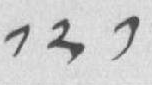༡༢༡
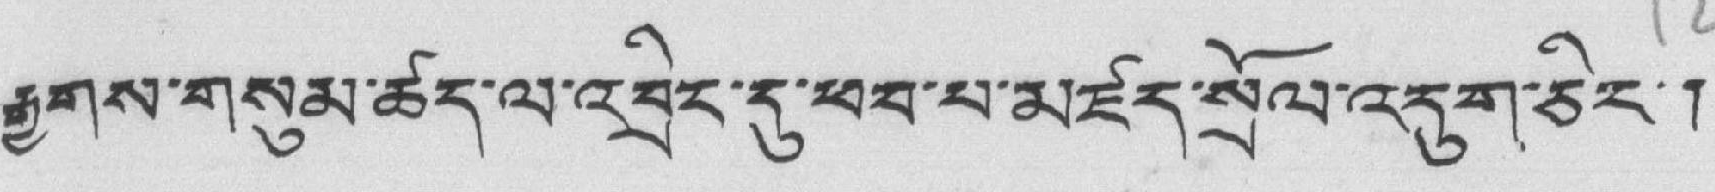རྒྱགས་གསུམ་ཚད་ལ་འབྲིང་དུ་ཕབ་པ་མཛད་སྲོལ་འདུག་ཅིང་།
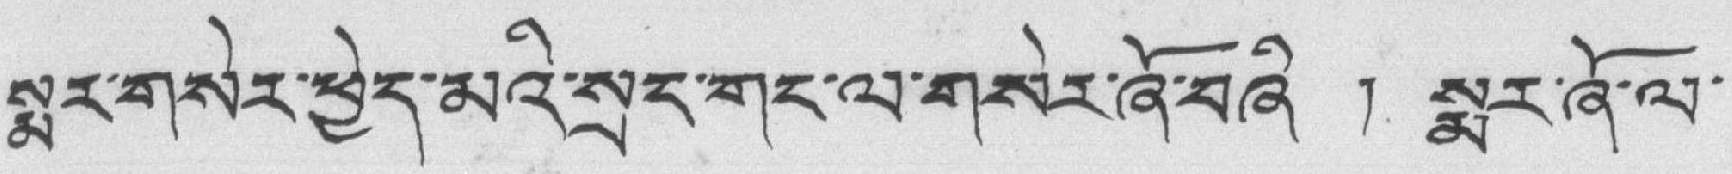སྨར་གསེར་ཕྱེད་མའི་སྲང་གང་ལ་གསེར་ཞོ་བཞི ། སྨར་ཞོ་ལ་
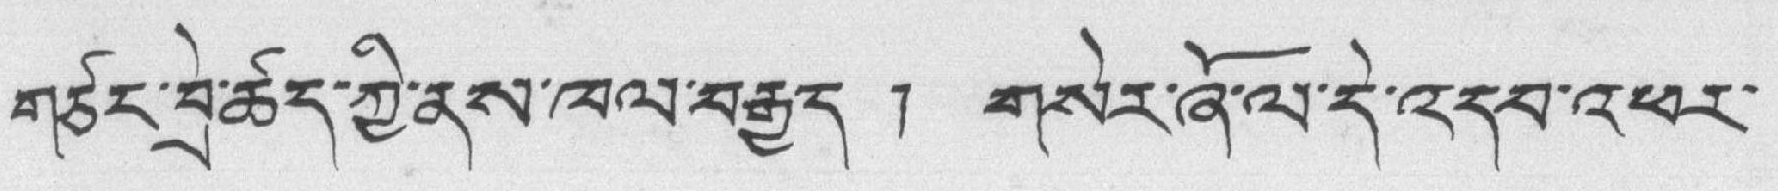གཙང་བྲེ་ཚད་ཀྱི་ནས་ཁལ་བརྒྱད ། གསེར་ཞོ་ལ་དེ་འདབ་འཕར་
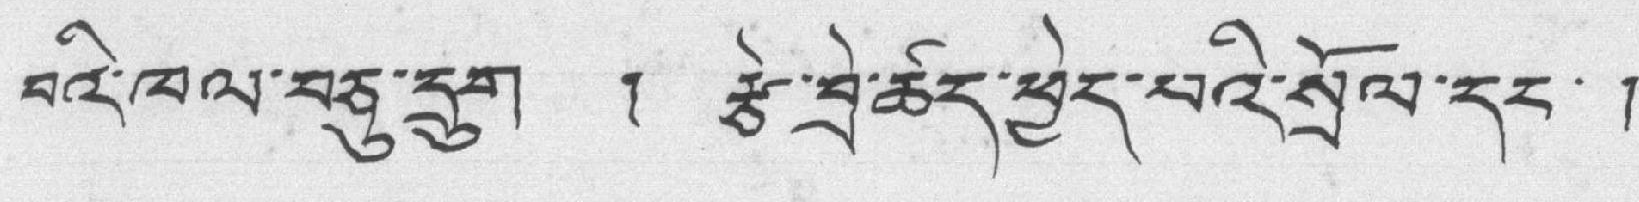བའི་ཁལ་བཅུ་དྲུག ། རྩེ་བྲེ་ཚད་ཕྱེད་པའི་སྲོལ་དང་ །
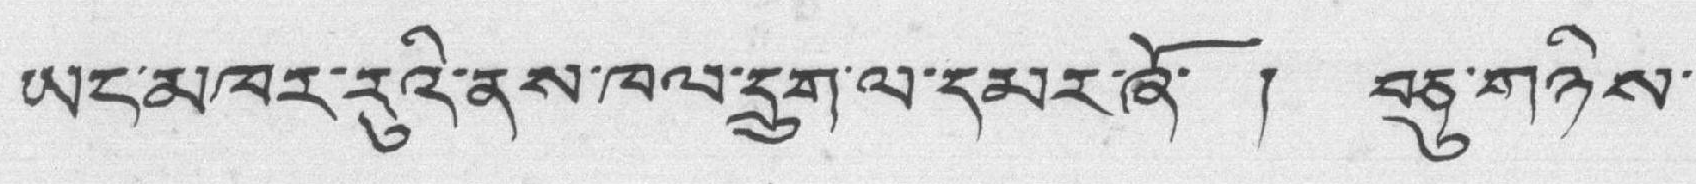ཡང་མཁར་རུའི་ནས་ཁལ་དྲུག་ལ་དམར་ཞོ་ ། བཅུ་གཉིས་
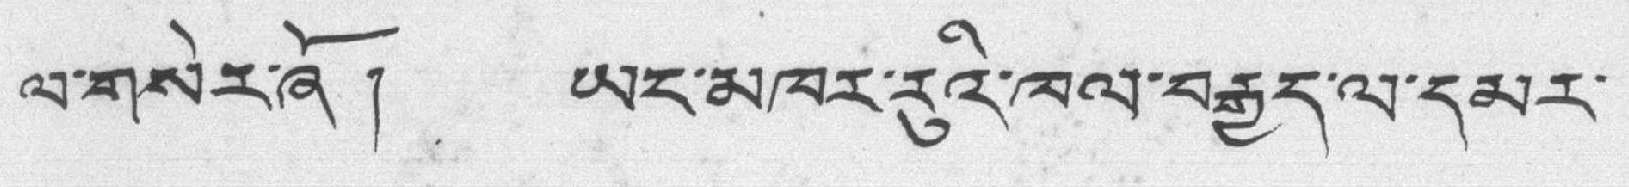ལ་གསེར་ཞོ ། ཡང་མཁར་རུའི་ཁལ་བརྒྱད་ལ་དམར་
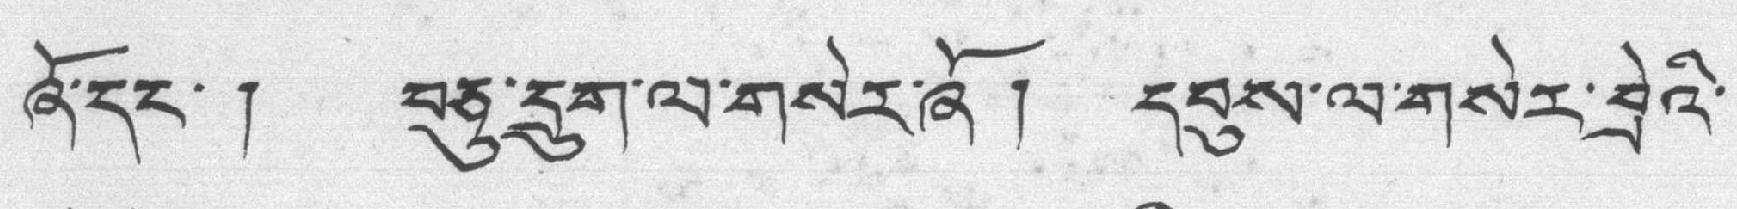ཞོ་དང་། བཅུ་དྲུག་ལ་གསེར་ཞོ། དབུས་ལ་གསེར་བྲེའི་
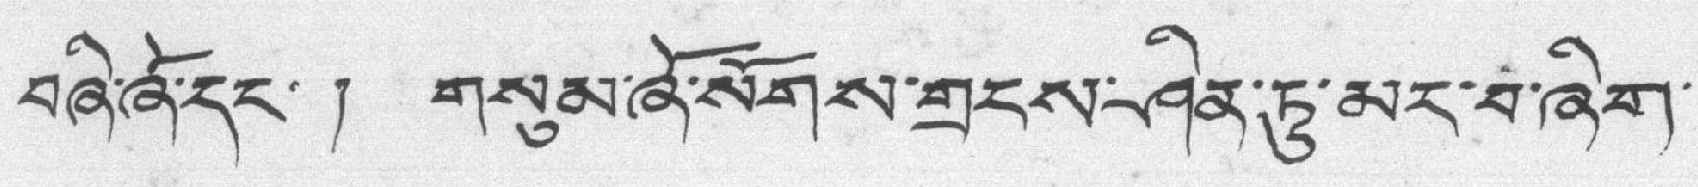བཞི་ནོ་དང་། གསུམ་ཞོ་སོགས་གྲངས་ཤིན་ཏུ་མར་བ་ཞིག་
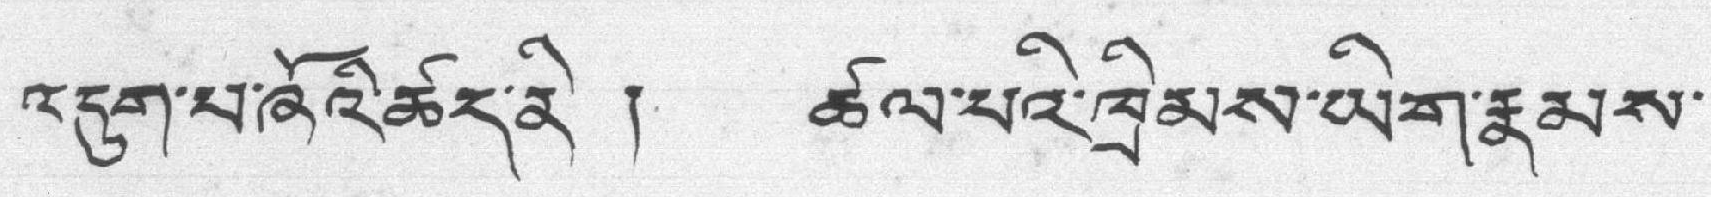འདུག་པ་ཞོའི་ཚད་ནི ། ཚལ་པའི་ཁྲིམས་ཡིག་རྣམས་
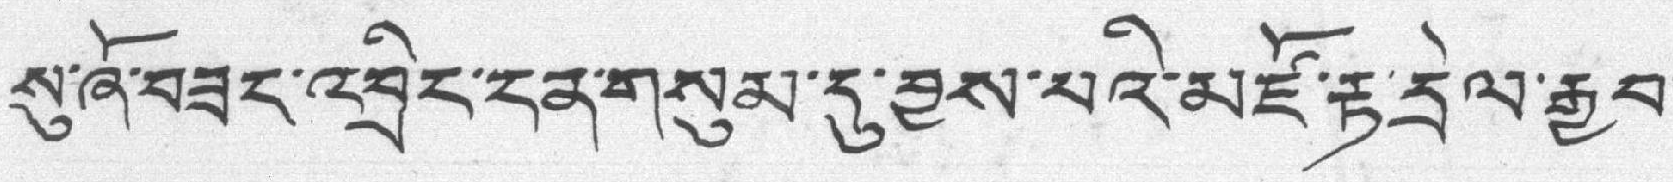སུ་ཞོ་བཟང་འབྲིང་ངན་གསུམ་དུ་བྱས་པའི་མཛོ་རྟ་དྲེལ་རྒྱབ་
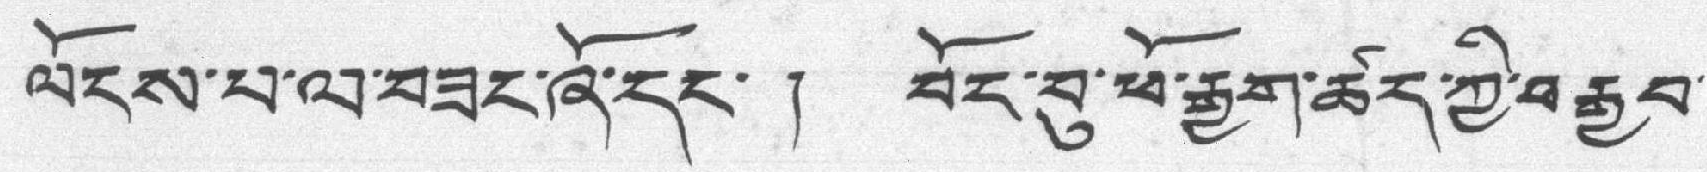ལོངས་པ་ལ་བཟང་ཞོ་དང་ ། བོང་བུ་ཕོ་རྒྱག་ཚད་ཀྱི་བརྒྱབ་
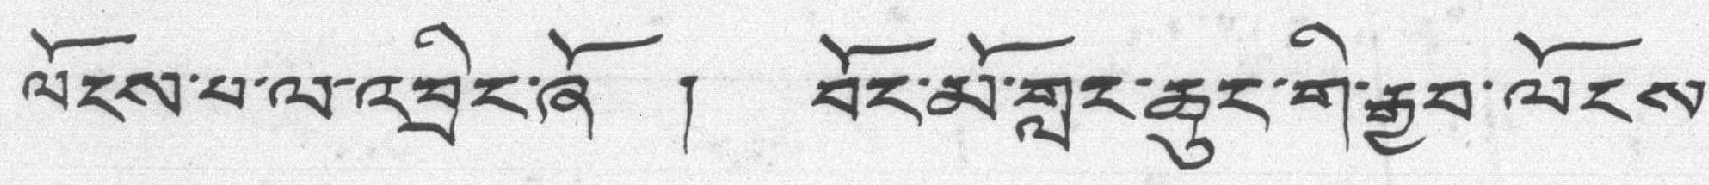ལོངས་པ་ལ་འབྲིང་ཞོ ། བོང་མོ་གླང་ཆུང་གི་རྒྱབ་ལོངས་
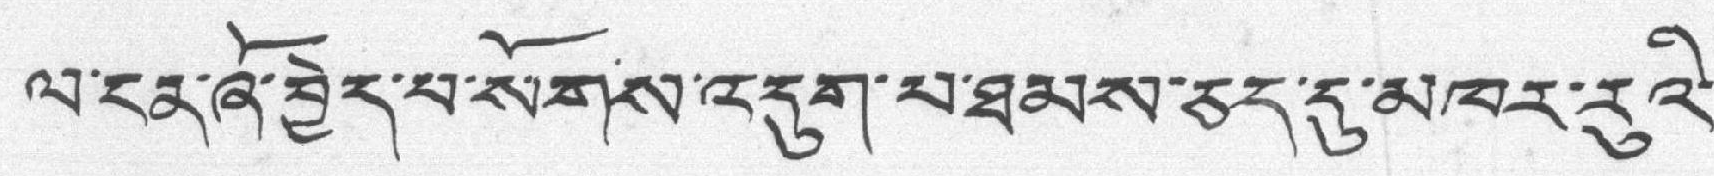ལ་ངན་ཞོ་བྱེད་པ་སོགས་འདུག་པ་ཐམས་ཅད་དུ་མཁར་རུའི་
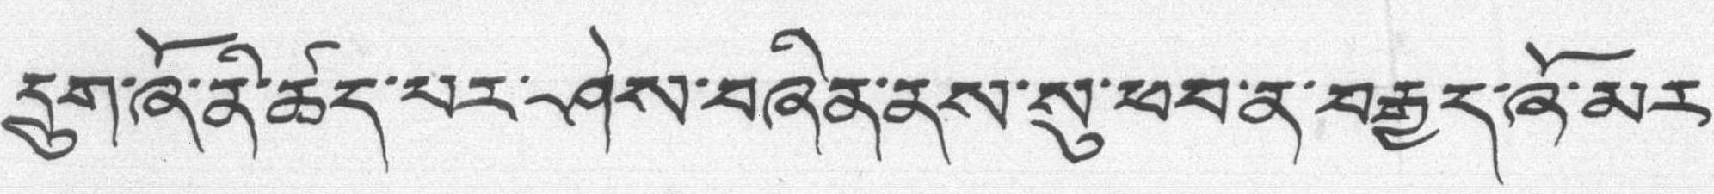དྲུག་ཞོ་ནི་ཚད་པར་ཤེས་བཞིན་ནས་སུ་ཕབ་ན་བརྒྱད་ཞོ་མར་
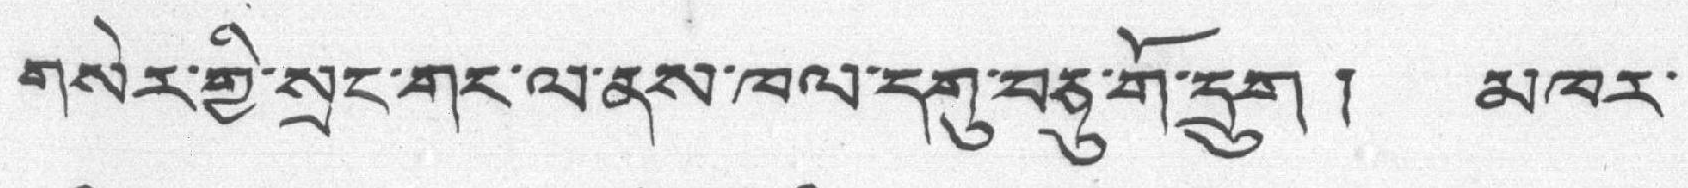གསེར་གྱི་སྲང་གང་ལ་ནས་ཁལ་དགུ་བཅུ་གོ་དྲུག ། མཁར་
